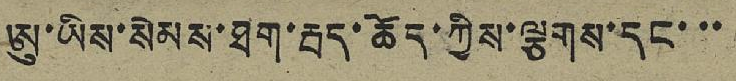ཨུ་ཡིས་སེམས་ཐག་རྦད་ཆོད་ཀྱིས་ལྕགས་དང་་་
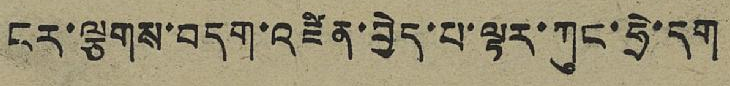ངར་ལྕགས་བདག་འཛིན་བྱེད་པ་ལྟར་ཀུང་ཧྲེ་དག
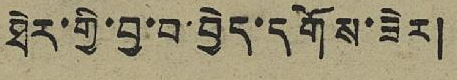ཐེར་གྱི་བྱ་བ་བྱེད་དགོས་ཟེར།
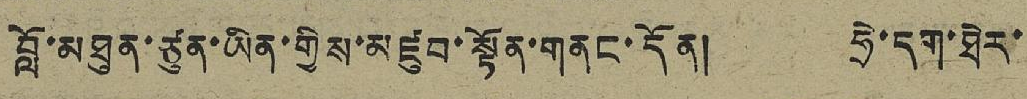བློ་མཐུན་ཙུན་ཡིན་གྱིས་མཛུབ་སྟོན་གནང་དོན། ཧྲེ་དག་ཐེར་
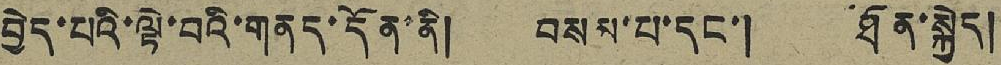བྱེད་པའི་ལྟེ་བའི་གནད་དོན་ནི། བསམ་པ་དང་། ཐོན་སྐྱེད།
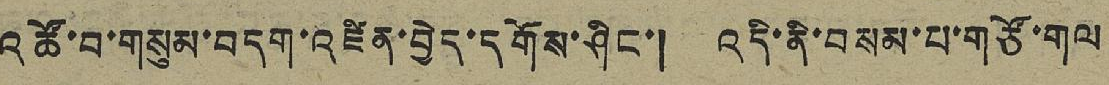འཚོ་བ་གསུམ་བདག་འཛིན་བྱེད་དགོས་ཤིང་། འདི་ནི་བསམ་པ་གཙོ་གལ
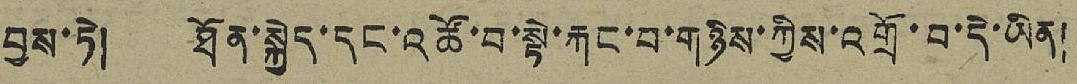བྱས་ཏེ། ཐོན་སྐྱེད་དང་འཚོ་བ་སྟེ་རྐང་བ་གཉིས་ཀྱིས་འགྲོ་བ་དེ་ཡིན།
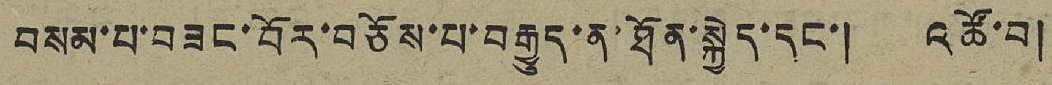བསམ་པ་བཟང་བོར་བཅོས་པ་བརྒྱུད་ན་ཐོན་སྐྱེད་དང་། འཚོ་བ།
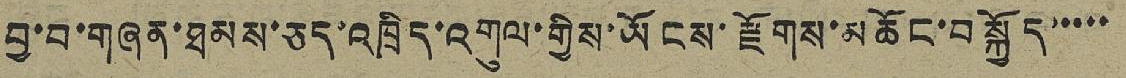བྱ་བ་གཞན་ཐམས་ཅད་འཁྲིད་འགུལ་གྱིས་ཡོངས་རྫོགས་མཆོང་བསྐྱོད་་་་་
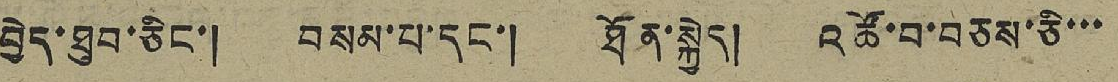བྱེད་ཐུབ་ཅིང་། བསམ་པ་དང་། ཐོན་སྐྱེད། འཚོ་བ་བཅས་ཅི་་་
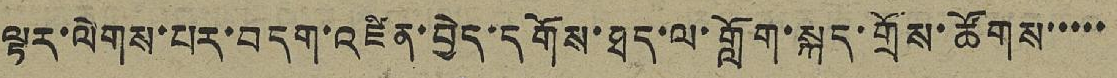ལྟར་ལེགས་པར་བདག་འཛིན་བྱེད་དགོས་ཐད་ལ་གློག་སྐད་གྲོས་ཚོགས་་་་་
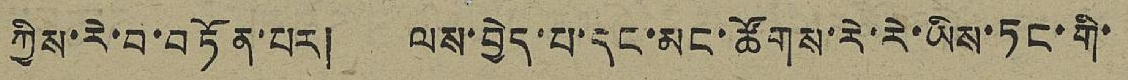ཀྱིས་རེ་བ་བཏོན་པར། ལས་བྱེད་པ་དང་མང་ཚོགས་རེ་རེ་ཡིས་ཏང་གི་
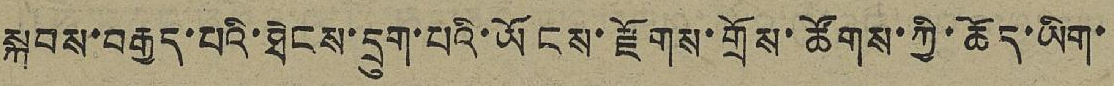སྐབས་བརྒྱད་པའི་ཐེངས་དྲུག་པའི་ཡོངས་རྫོགས་གྲོས་ཚོགས་ཀྱི་ཆོད་ཡིག་
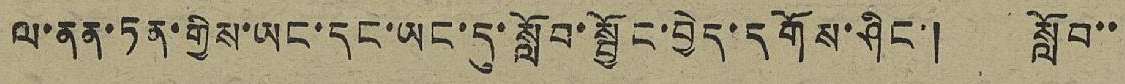ལ་ནན་ཏན་གྱིས་ཡང་དང་ཡང་དུ་སློབ་སྦྱོང་བྱེད་དགོས་ཤིང་། སློབ་་
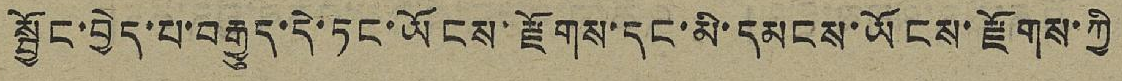སྦྱོང་བྱེད་པ་བརྒྱུད་དེ་ཏང་ཡོངས་རྫོགས་དང་མི་དམངས་ཡོངས་རྫོགས་ཀྱི
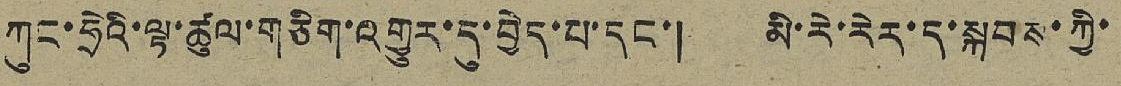ཀུང་ཧྲེའི་ལྟ་ཚུལ་གཅིག་འགྱུར་དུ་བྱེད་པ་དང་། མི་རེ་རེར་ད་སྐབས་ཀྱི་
